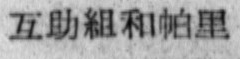互助組和帕里
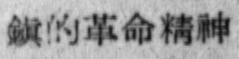鎮的革命精神
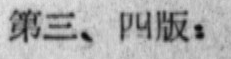第三、四版：
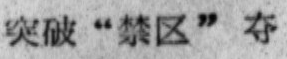突破“禁区”夺
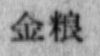金粮
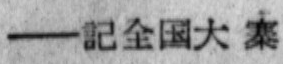——記全国大寨
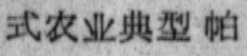式农业典型帕
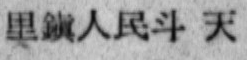里鎮人民斗天
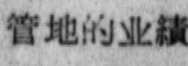管地的业績
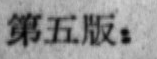第五版：
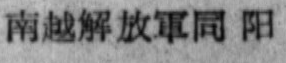南越解放軍同阳
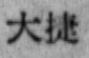大捷
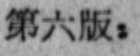第六版：
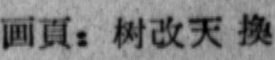画頁：树改天換
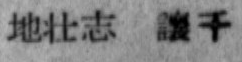地壮志 讓千
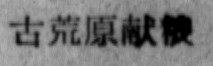古荒原献粮
